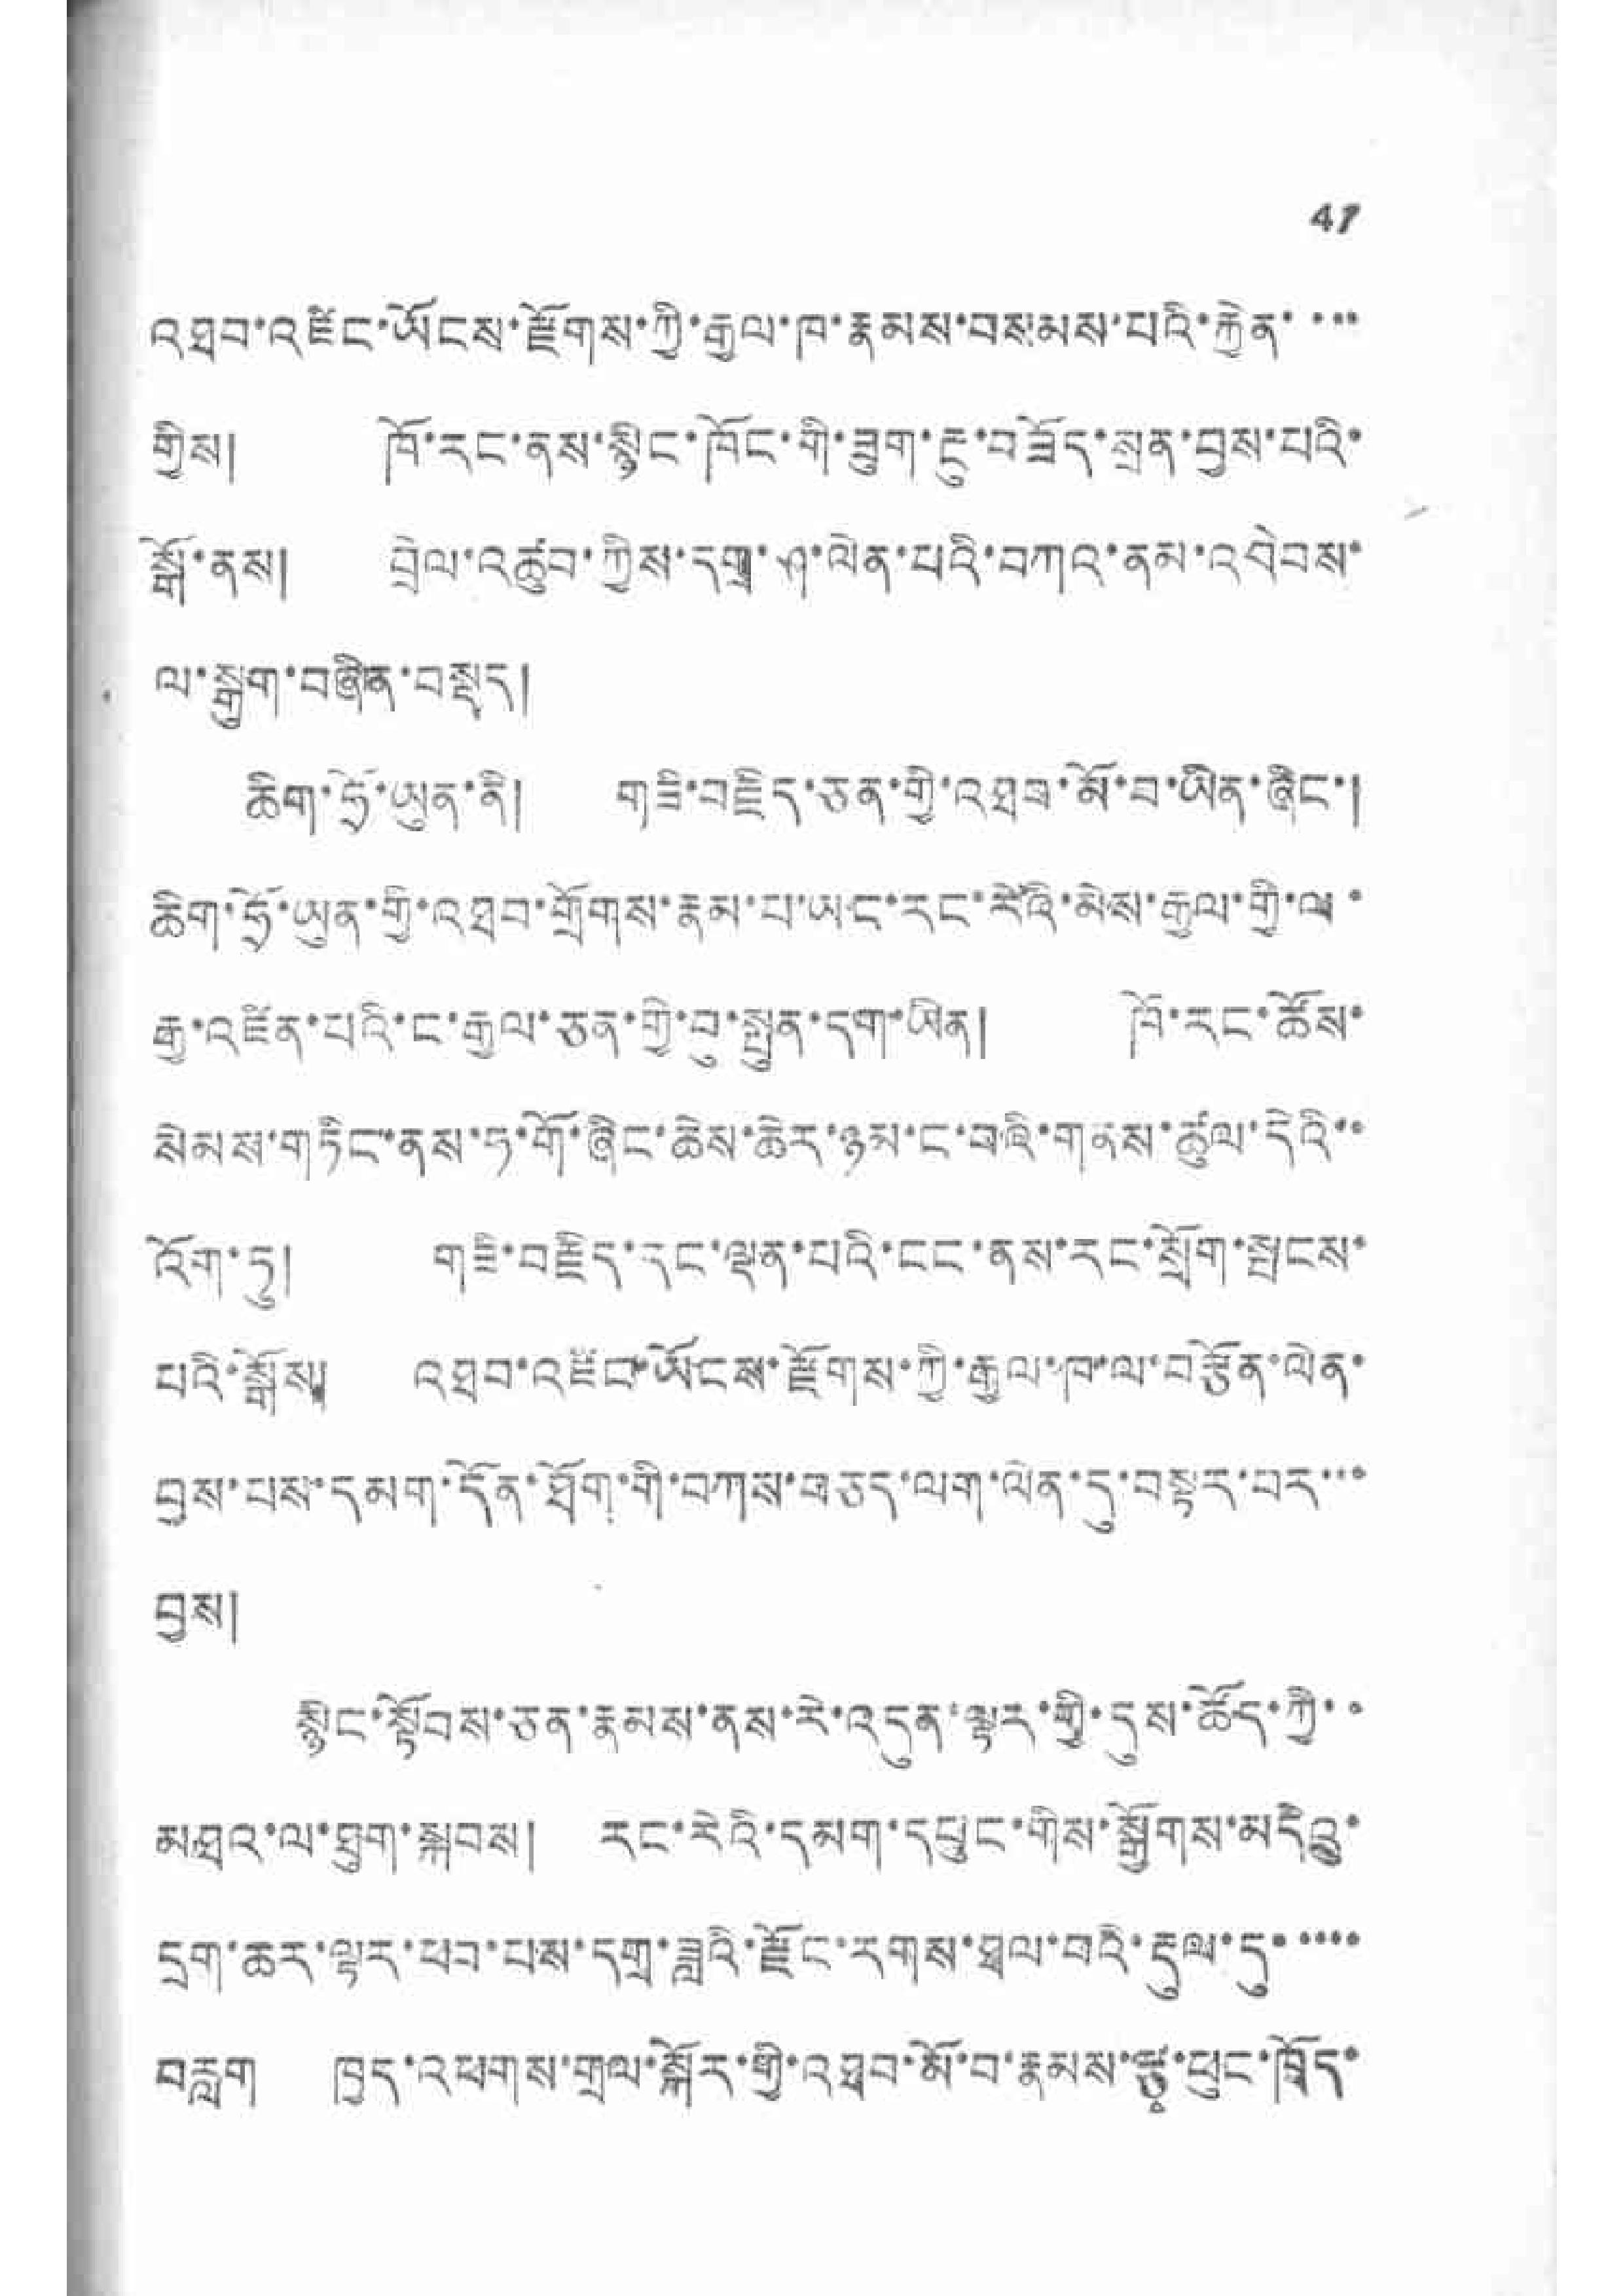41
འཐབ་འཛིང་ཡོངས་རྫོགས་ཀྱི་རྒྱལ་ཁ་རྣམས་བསམས་པའི་རྐྱེན་་་་
གྱིས། ཁོ་རང་ནས་སྙང་ཁོང་གི་ཟུག་རྔུ་བཟོད་སྲན་བྱས་པའི་
སྒོ་ནས། བྲེལ་འཚུབ་ཀྱིས་དགྲ་ཤ་ལེན་པའི་བཀའ་ནམ་འབེབས་
ལ་སྒུག་བཞིན་བསྡད།
ཆིག་ཧྲོ་ཡུན་ནི། གཟི་བརྗིད་ཅན་གྱི་འཐབ་མོ་བ་ཡིན་ཞིང་།
ཆིག་ཧྲོ་ཡུན་གྱི་འཐག་གྲོགས་རྣམ་པ་ཡང་རང་རེའི་མེས་རྒྱལ་གྱི་ལ་
རྒྱ་འཛིན་པའི་ང་རྒྱལ་ཅན་གྱི་བུ་སྤུན་དག་ཡིན། ཁོ་རང་ཚོས་
སེམས་གཏིང་ནས་ཧ་གོ་ཞིང་ཆེས་ཆེར་ཉམ་ང་བའི་གནས་ཚུལ་དེའི་་
འོག་ཏུ། གཟི་བརྗེད་དང་ལྡན་པའི་ངང་ནས་རང་སྒྲོག་སྤངས་
པའི་སྒོས། འཐབ་འཛིང་ཡོངས་རྫོགས་ཀྱི་རྒྱལ་ཁ་ལ་བརྩོན་ལེན་
བྱས་པས་དམག་དོན་ཐོག་གི་བཀས་གཅད་ལག་ལོན་དུ་བསྟར་པར་་་
བྱས།
སྙིང་སྟོབས་ཅན་རྣམས་ནས་རེ་འདུན་ལྟར་གྱི་དུས་ཚོད་ཀྱི་་
མཐའ་ལ་ཐུག་སྐབས། རང་རེའི་དམག་དཔུང་གིས་སྒྱོགས་མདེའུ་
དྲག་ཆར་ལྟར་ཕབ་པས་དགྲ་ཟླའི་རྫོང་རགས་ཐལ་བདི་རྡུལ་དུ་་་་་
བརླག ཁྱད་འཕགས་གྲལ་སྐོར་ཀྱི་འཐབ་མོ་བ་རྣམས་རྩྭ་ཕུང་ཁྲོད་
